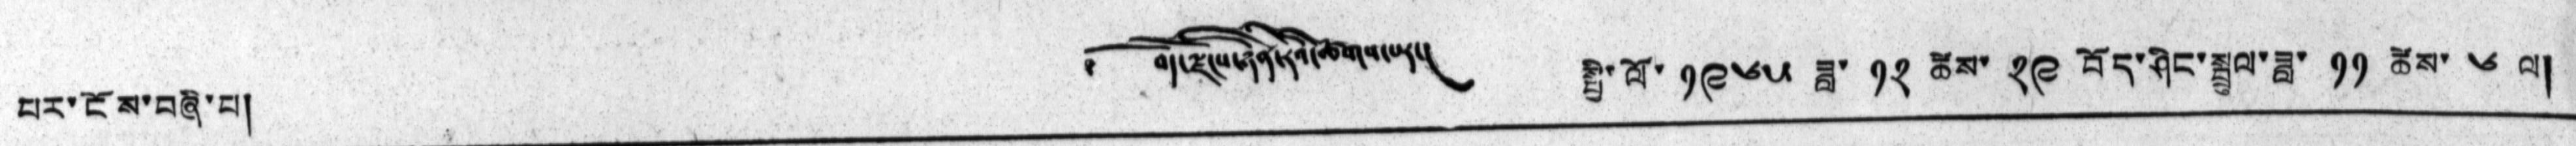པར་ངོས་བཞི་པ། ༄༅། བོད་ལྗོངས་ཉིན་རེའི་ཚགས་པར། སྤྱི་ལོ་ ༡༩༦༥ ཟླ་ ༡༢ ཚེས་ ༢༩ བོད་ཤིང་སྦྲུལ་ཟླ་ ༡༡ ཚེས་ ༦ ལ།
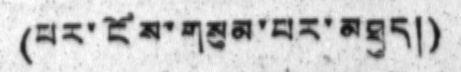(པར་ངོས་གསུམ་པར་མཐུད།)
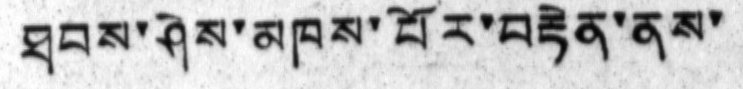ཐབས་ཤེས་མཁས་པོར་བརྟེན་ནས་
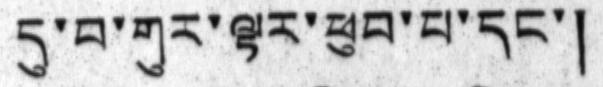དུ་བ་གུར་ལྟར་ཕུབ་པ་དང་།
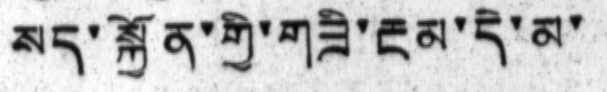སད་སྐྱོན་གྱི་གཟི་རྔམ་དེ་མ་
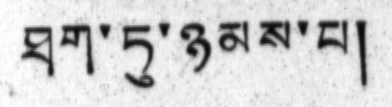ཐག་ཏུ་ཉམས་པ།
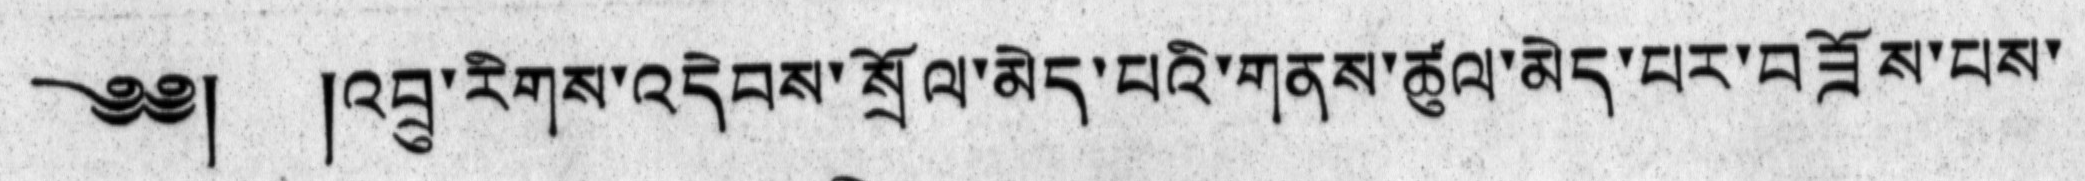༄༅། །འབྲུ་རིགས་འདེབས་སྲོལ་མེད་པའི་གནས་ཚུལ་མེད་པར་བཟོས་པས་
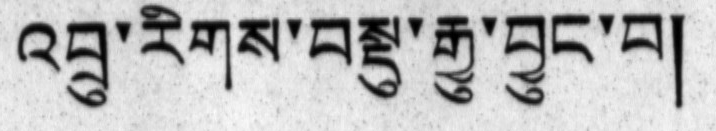འབྲུ་རིགས་བསྡུ་རྒྱུ་བྱུང་བ།
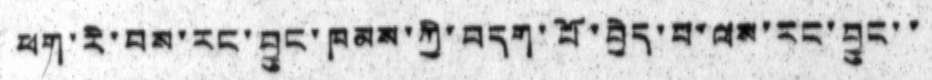ཕག་རི་བས་རང་བྱུང་ཁམས་ཀྱི་བདག་པོ་བྱེད་པ་ལས་རང་བྱུང་་
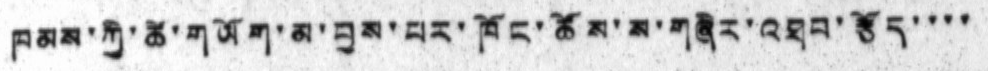ཁམས་ཀྱི་ཚེ་གཡོག་མ་བྱས་པར་ཁོང་ཚོས་ས་གཞིར་འཐབ་རྩོད་་་་
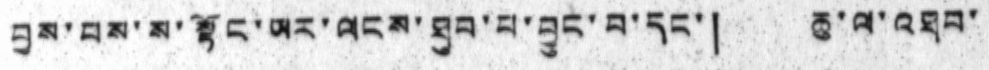བྱས་པས་ས་སྟོང་ཡར་ལངས་ཐུབ་པ་བྱུང་བ་དང་། ཆུ་ལ་འཐབ་
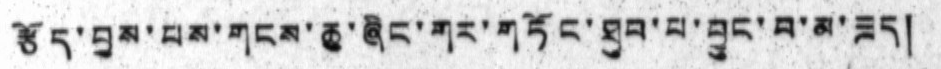རྩོད་བྱས་པས་གངས་ཆུ་ཞིང་གར་གཏོང་ཐུབ་པ་བྱུང་བ་མ་ཟད།
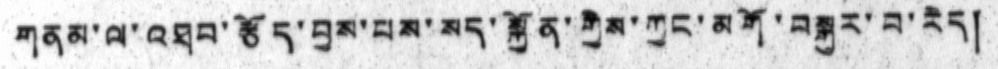གནམ་ལ་འཐབ་རྩོད་བྱས་པས་སད་སྐྱོན་གྱིས་ཀྱང་མགོ་བསྐུར་བ་རེད།
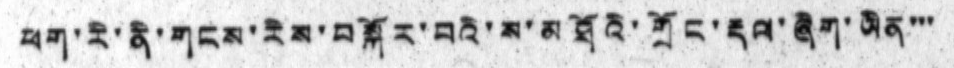ཕག་རི་གངས་རིས་བསྐོར་བའི་ས་མཐོའི་གྲོང་རྡལ་ཞིག་ཡིན་་་
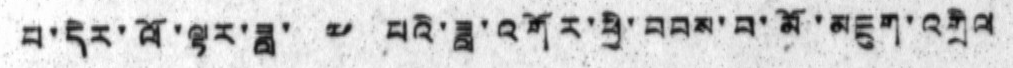པ་དེར་ལོ་ལྟར་ཟླ་ ༧ པའི་ཟླ་འགོར་ཕྱི་བབས་བ་མོ་མཇུག་འགྲིལ
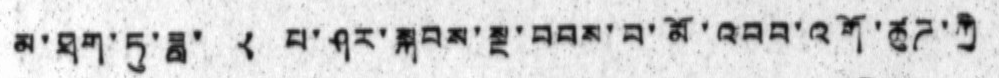མ་ཐག་ཏུ་ཟླ་ ༨ པ་ཤར་སྐབས་སྔ་བབས་བ་མོ་འབབ་འགོ་ཚུཌ་ཀྱི
